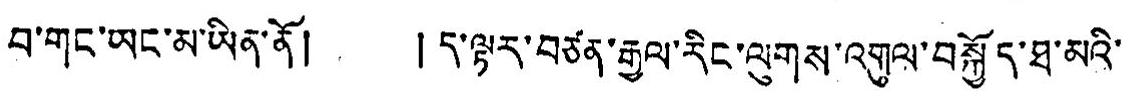བ་གང་ཡང་མ་ཡིན་ནོ། ། ད་ལྟར་བཙན་རྒྱལ་རིང་ལུགས་འགུལ་བསྐྱོད་ཐ་མའི་
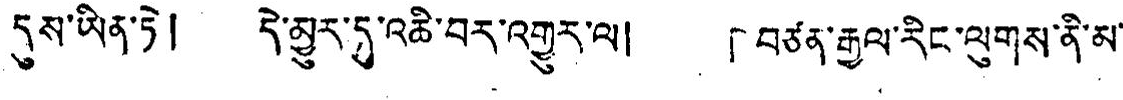དུས་ཡིན་ཏེ། དེ་མྱུར་དུ་འཆི་བར་འགྱུར་ལ། 「བཙན་རྒྱལ་རིང་ལུགས་ནི་མ་
